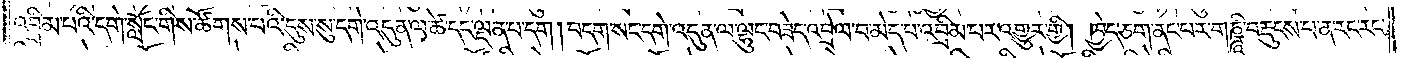འབྲིམ་པའི་དགེ་སློང་གིས་ཚོགས་པའི་དུས་སུ་དགེ་འདུན་ལ་ཚེ་དང་ལྡན་པ་དག །བདག་སང་དག་འདུན་ལ་ལྷུང་བཟེད་འབྲེལ་བ་མེད་པ་འབྲིམ་པར་འགྱུར་གྱི། ཁྱེད་ཅག་ནང་པར་གཎྜཱི་བརྡུངས་པ་ན་རང་རང་
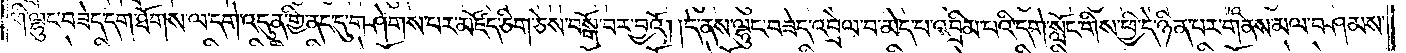གི་ལྷུང་བཟེད་དག་ཐོགས་ལ་དགེ་འདུན་གྱི་ནང་དུ་གཤེགས་པར་མཛོད་ཅིག་ཅེས་བསྒོ་བར་བྱའོ། །དེ་ནས་ལྷུང་བཟེད་འབྲེལ་བ་མེད་པ་འབྲིམ་པའི་དགེ་སློང་གིས་ཕྱི་དེ་ཉིན་པར་གནས་མལ་བཤམས་
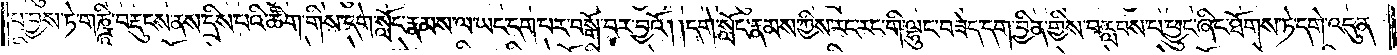པ་བྱས་ཏེ་གཎྜཱི་བརྡུངས་ནས་དྲིས་པའི་ཚིག་གིས་དགེ་སློང་རྣམས་ལ་ཡང་དག་པར་བསྒོ་བར་བྱའོ། །དགེ་སློང་རྣམས་ཀྱིས་རང་རང་གི་ལྷུང་བཟེད་དག་བྱིན་གྱིས་བརླབས་པ་ཕྱུང་ཞིང་ཐོགས་ཏེ་དགེ་འདུན་
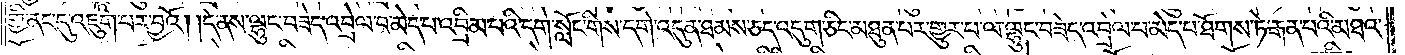གྱི་ནང་དུ་འཇུག་པར་བྱའོ། །དེ་ནས་ལྷུང་བཟེད་འབྲེལ་བ་མེད་པ་འབྲིམ་པའི་དགེ་སློང་གིས་དགེ་འདུན་ཐམས་ཅད་འདུག་ཅིང་མཐུན་པར་གྱུར་པ་ལ་ལྷུང་བཟེད་འབྲེལ་པ་མེད་པ་ཐོགས་ཏེ་རྒན་པའི་མཐའ་
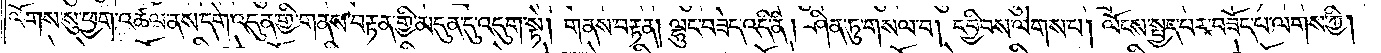ལོགས་སུ་ཕྱག་འཚལ་ནས་དགེ་འདུན་གྱི་གནས་བརྟན་གྱི་མདུན་དུ་འདུག་སྟེ། གནས་བརྟན། ལྷུང་བཟེད་འདི་ནི། ཤིན་ཏུ་གསལ་བ། དབྱིབས་ལེགས་པ། ལོངས་སྤྱད་པར་བཟོད་པ་ལགས་ཀྱི།
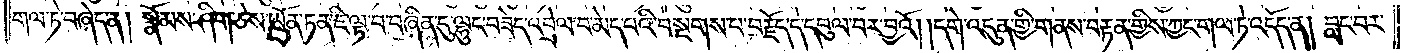གལ་ཏེ་བཞེད་ན། སྣོམས་ཤིག་ཅེས་ཡོན་ཏན་ཇི་ལྟ་བ་བཞིན་དུ་ལྷུང་བཟེད་འབྲེལ་བ་མེད་པའི་བསྔགས་པ་བརྗོད་དེ་དབུལ་བར་བྱའོ། །དགེ་འདུན་གྱི་གནས་བརྟན་གྱིས་ཀྱང་གལ་ཏེ་འདོད་ན། བླང་བར་
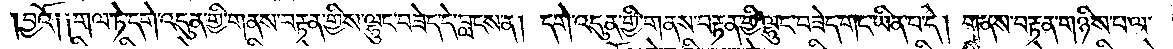བྱའོ༑ ༑གལ་ཏེ་དགེ་འདུན་གྱི་གནས་བརྟན་གྱིས་ལྷུང་བཟེད་དེ་བླངས་ན། དགེ་འདུན་གྱི་གནས་བརྟན་གྱི་ལྷུང་བཟེད་གང་ཡིན་པ་དེ། གནས་བརྟན་གཉིས་པ་ལ་
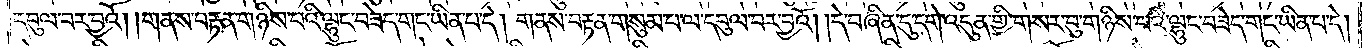དབུལ་བར་བྱའོ། །གནས་བརྟན་གཉིས་པའི་ལྷུང་བཟེད་གང་ཡིན་པ་དེ། གནས་བརྟན་གསུམ་པ་ལ་དབུལ་བར་བྱའོ། །དེ་བཞིན་དུ་དགེ་འདུན་གྱི་གསར་བུ་གཉིས་པའི་ལྷུང་བཟེད་གང་ཡིན་པ་དེ།
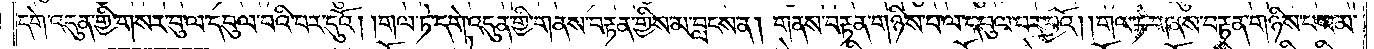དགེ་འདུན་གྱི་གསར་བུ་ལ་དབུལ་བའི་བར་དུའོ། །གལ་ཏེ་དགེ་འདུན་གྱི་གནས་བརྟན་གྱིས་མ་བླངས་ན། གནས་བརྟན་གཉིས་པ་ལ་དབུལ་བར་བྱའོ། །གལ་ཏེ་གནས་བརྟན་གཉིས་པས་མ་
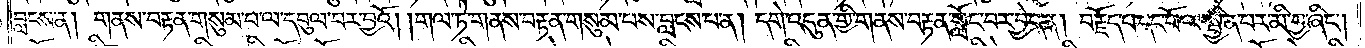བླངས་ན། གནས་བརྟན་གསུམ་པ་ལ་དབུལ་བར་བྱའོ། །གལ་ཏེ་གནས་བརྟན་གསུམ་པས་བླངས་པ་ན། དགེ་འདུན་གྱི་གནས་བརྟན་སློང་བར་བྱེད་ན། བརྗོད་པ་དང་པོ་ལ་སྦྱིན་པར་མི་བྱ་ཞིང༌།
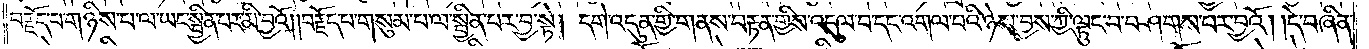བརྗོད་པ་གཉིས་པ་ལ་ཡང་སྦྱིན་པར་མི་བྱའོ། །བརྗོད་པ་གསུམ་པ་ལ་སྦྱིན་པར་བྱ་སྟེ། དགེ་འདུན་གྱི་གནས་བརྟན་གྱིས་འདུལ་བ་དང་འགལ་བའི་ཉེས་བྱས་ཀྱི་ལྟུང་བ་བཤགས་པར་བྱའོ། །དེ་བཞིན་
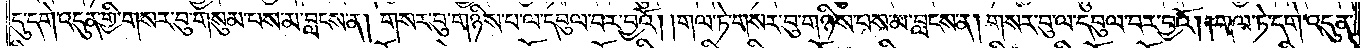དུ་དགེ་འདུན་གྱི་གསར་བུ་གསུམ་པས་མ་བླངས་ན། གསར་བུ་གཉིས་པ་ལ་དབུལ་བར་བྱའོ། །གལ་ཏེ་གསར་བུ་གཉིས་པས་མ་བླངས་ན། གསར་བུ་ལ་དབུལ་བར་བྱའོ། །གལ་ཏེ་དགེ་འདུན་
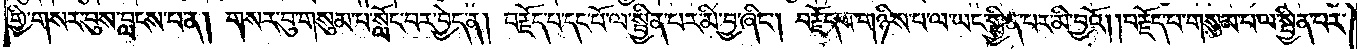གྱི་གསར་བུས་བླངས་པ་ན། གསར་བུ་གསུམ་པ་སློང་བར་བྱེད་ན། བརྗོད་པ་དང་པོ་ལ་སྦྱིན་པར་མི་བྱ་ཞིང༌། བརྗོད་པ་གཉིས་པ་ལ་ཡང་སྦྱིན་པར་མི་བྱའོ། །བརྗོད་པ་གསུམ་པ་ལ་སྦྱིན་པར་
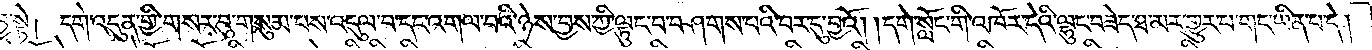བྱ་སྟེ། དགེ་འདུན་གྱི་གསར་བུ་གསུམ་པས་འདུལ་བ་དང་འགལ་བའི་ཉེས་བྱས་ཀྱི་ལྟུང་བ་བཤགས་པའི་བར་དུ་བྱའོ། །དགེ་སློང་གི་འཁོར་དེའི་ལྷུང་བཟེད་ཐ་མར་གྱུར་པ་གང་ཡིན་པ་དེ།
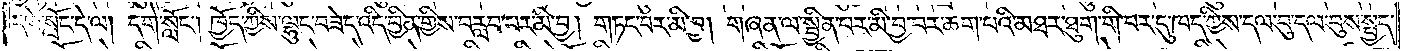དགེ་སློང་དེ་ལ། དགེ་སློང༌། ཁྱོད་ཀྱིས་ལྷུང་བཟེད་འདི་བྱིན་གྱིས་བརླབ་པར་མི་བྱ། གཏང་བར་མི་བྱ། གཞན་ལ་སྦྱིན་པར་མི་བྱ་བར་ཆག་པའི་མཐར་ཐུག་གི་བར་དུ་ཁད་ཀྱིས་དལ་བུ་དལ་བུས་སྤྱད་
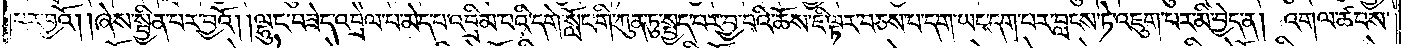པར་བྱའོ། །ཞེས་སྦྱིན་པར་བྱའོ། །ལྷུང་བཟེད་འབྲེལ་པ་མེད་པ་འབྲིམ་པའི་དགེ་སློང་གི་ཀུན་ཏུ་སྤྱད་པར་བྱ་བའི་ཆོས་ཇི་ལྟར་བཅས་པ་དག་ཡང་དག་པར་བླངས་ཏེ་འཇུག་པར་མི་བྱེད་ན། འགལ་ཚབས་
